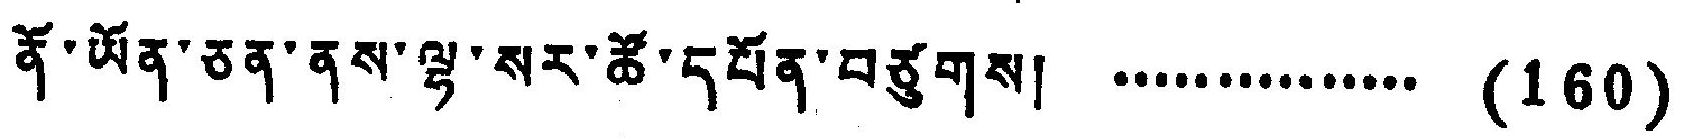ནོ་ཡོན་ཅན་ནས་ལྷ་སར་ཚོ་དཔོན་བཙུགས། ...............(160)
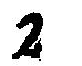2
